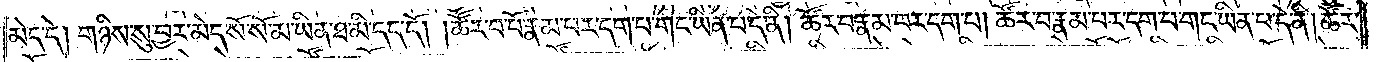མེད་དེ། གཉིས་སུ་བྱར་མེད་སོ་སོ་མ་ཡིན་ཐ་མི་དད་དོ། །ཚོར་བ་པོ་རྣམ་པར་དག་པ་གང་ཡིན་པ་དེ་ནི། ཚོར་བ་རྣམ་པར་དག་པ། ཚོར་བ་རྣམ་པར་དག་པ་གང་ཡིན་པ་དེ་ནི། ཚོར་
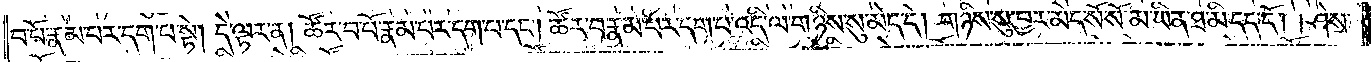བ་པོ་རྣམ་པར་དག་པ་སྟེ། དེ་ལྟར་ན། ཚོར་བ་པོ་རྣམ་པར་དག་པ་དང༌། ཚོར་བ་རྣམ་པར་དག་པ་འདི་ལ་གཉིས་སུ་མེད་དེ། གཉིས་སུ་བྱར་མེད་སོ་སོ་མ་ཡིན་ཐ་མི་དད་དོ། །ཤེས་
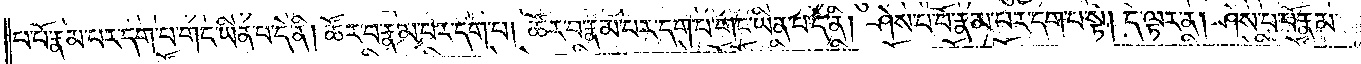པ་པོ་རྣམ་པར་དག་པ་གང་ཡིན་པ་དེ་ནི། ཚོར་བ་རྣམ་པར་དག་པ། ཚོར་བ་རྣམ་པར་དག་པ་གང་ཡིན་པ་དེ་ནི། ཤེས་པ་པོ་རྣམ་པར་དག་པ་སྟེ། དེ་ལྟར་ན། ཤེས་པ་པོ་རྣམ་
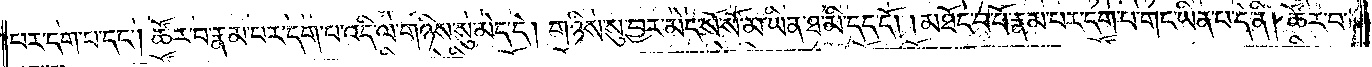པར་དག་པ་དང༌། ཚོར་བ་རྣམ་པར་དག་པ་འདི་ལ་གཉིས་སུ་མེད་དེ། གཉིས་སུ་བྱར་མེད་སོ་སོ་མ་ཡིན་ཐ་མི་དད་དོ། །མཐོང་བ་པོ་རྣམ་པར་དག་པ་གང་ཡིན་པ་དེ་ནི། ཚོར་བ་
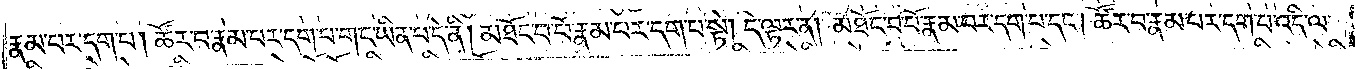རྣམ་པར་དག་པ། ཚོར་བ་རྣམ་པར་དག་པ་གང་ཡིན་པ་དེ་ནི། མཐོང་བ་པོ་རྣམ་པར་དག་པ་སྟེ། དེ་ལྟར་ན། མཐོང་བ་པོ་རྣམ་པར་དག་པ་དང༌། ཚོར་བ་རྣམ་པར་དག་པ་འདི་ལ་
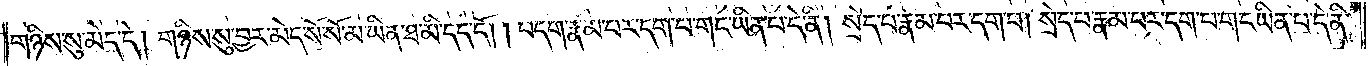གཉིས་སུ་མེད་དེ། གཉིས་སུ་བྱར་མེད་སོ་སོ་མ་ཡིན་ཐ་མི་དད་དོ། །བདག་རྣམ་པར་དག་པ་གང་ཡིན་པ་དེ་ནི། སྲེད་པ་རྣམ་པར་དག་པ། སྲེད་པ་རྣམ་པར་དག་པ་གང་ཡིན་པ་དེ་ནི།
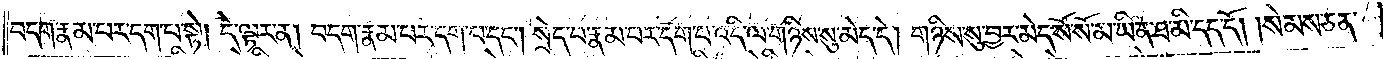བདག་རྣམ་པར་དག་པ་སྟེ། དེ་ལྟར་ན། བདག་རྣམ་པར་དག་པ་དང༌། སྲེད་པ་རྣམ་པར་དག་པ་འདི་ལ་གཉིས་སུ་མེད་དེ། གཉིས་སུ་བྱར་མེད་སོ་སོ་མ་ཡིན་ཐ་མི་དད་དོ། །སེམས་ཅན་
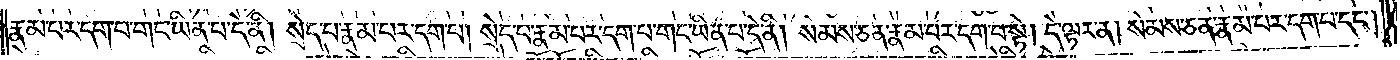རྣམ་པར་དག་པ་གང་ཡིན་པ་དེ་ནི། སྲེད་པ་རྣམ་པར་དག་པ། སྲེད་པ་རྣམ་པར་དག་པ་གང་ཡིན་པ་དེ་ནི། སེམས་ཅན་རྣམ་པར་དག་པ་སྟེ། དེ་ལྟར་ན། སེམས་ཅན་རྣམ་པར་དག་པ་དང༌།
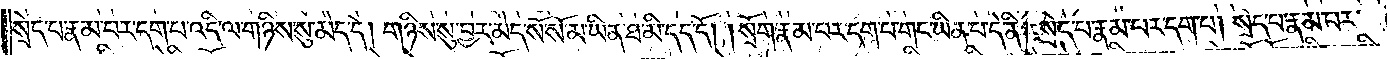སྲེད་པ་རྣམ་པར་དག་པ་འདི་ལ་གཉིས་སུ་མེད་དེ། གཉིས་སུ་བྱར་མེད་སོ་སོ་མ་ཡིན་ཐ་མི་དད་དོ། །སྲོག་རྣམ་པར་དག་པ་གང་ཡིན་པ་དེ་ནི། སྲེད་པ་རྣམ་པར་དག་པ། སྲེད་པ་རྣམ་པར་
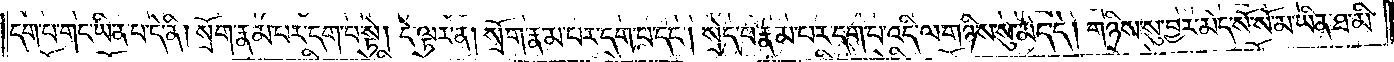དག་པ་གང་ཡིན་པ་དེ་ནི། སྲོག་རྣམ་པར་དག་པ་སྟེ། དེ་ལྟར་ན། སྲོག་རྣམ་པར་དག་པ་དང༌། སྲེད་པ་རྣམ་པར་དག་པ་འདི་ལ་གཉིས་སུ་མེད་དེ། གཉིས་སུ་བྱར་མེད་སོ་སོ་མ་ཡིན་ཐ་མི་
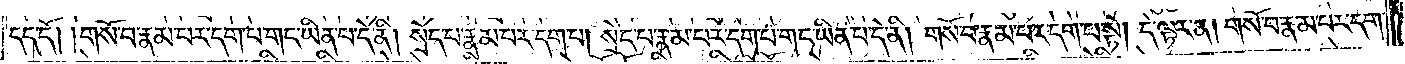དད་དོ། །གསོ་བ་རྣམ་པར་དག་པ་གང་ཡིན་པ་དེ་ནི། སྲེད་པ་རྣམ་པར་དག་པ། སྲེད་པ་རྣམ་པར་དག་པ་གང་ཡིན་པ་དེ་ནི། གསོ་བ་རྣམ་པར་དག་པ་སྟེ། དེ་ལྟར་ན། གསོ་བ་རྣམ་པར་དག་
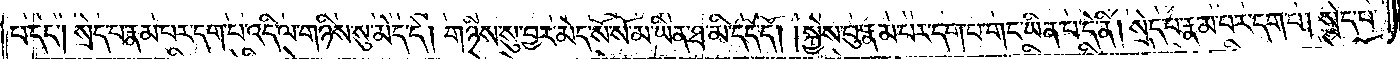པ་དང༌། སྲེད་པ་རྣམ་པར་དག་པ་འདི་ལ་གཉིས་སུ་མེད་དེ། གཉིས་སུ་བྱར་མེད་སོ་སོ་མ་ཡིན་ཐ་མི་དད་དོ། །སྐྱེས་བུ་རྣམ་པར་དག་པ་གང་ཡིན་པ་དེ་ནི། སྲེད་པ་རྣམ་པར་དག་པ། སྲེད་པ་
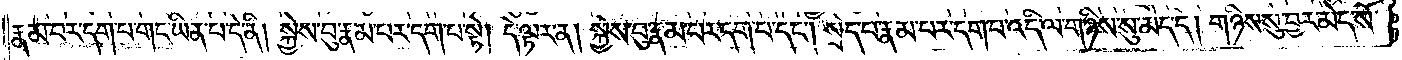རྣམ་པར་དག་པ་གང་ཡིན་པ་དེ་ནི། སྐྱེས་བུ་རྣམ་པར་དག་པ་སྟེ། དེ་ལྟར་ན། སྐྱེས་བུ་རྣམ་པར་དག་པ་དང༌། སྲེད་པ་རྣམ་པར་དག་པ་འདི་ལ་གཉིས་སུ་མེད་དེ། གཉིས་སུ་བྱར་མེད་སོ་
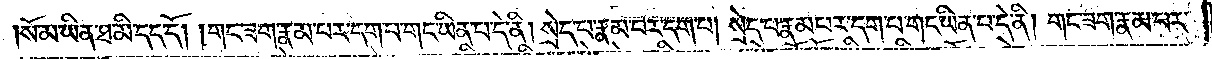སོ་མ་ཡིན་ཐ་མི་དད་དོ། །གང་ཟག་རྣམ་པར་དག་པ་གང་ཡིན་པ་དེ་ནི། སྲེད་པ་རྣམ་པར་དག་པ། སྲེད་པ་རྣམ་པར་དག་པ་གང་ཡིན་པ་དེ་ནི། གང་ཟག་རྣམ་པར་
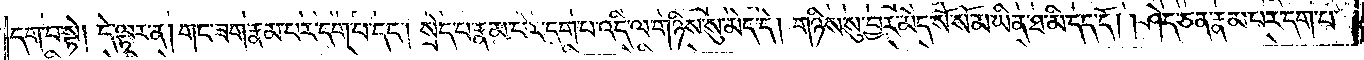དག་པ་སྟེ། དེ་ལྟར་ན། གང་ཟག་རྣམ་པར་དག་པ་དང༌། སྲེད་པ་རྣམ་པར་དག་པ་འདི་ལ་གཉིས་སུ་མེད་དེ། གཉིས་སུ་བྱར་མེད་སོ་སོ་མ་ཡིན་ཐ་མི་དད་དོ། །ཤེད་ཅན་རྣམ་པར་དག་པ་
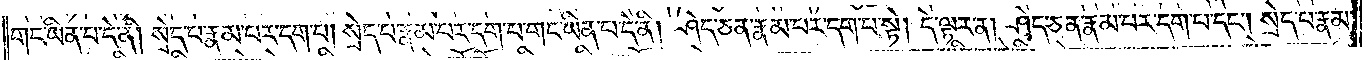གང་ཡིན་པ་དེ་ནི། སྲེད་པ་རྣམ་པར་དག་པ། སྲེད་པ་རྣམ་པར་དག་པ་གང་ཡིན་པ་དེ་ནི། ཤེད་ཅན་རྣམ་པར་དག་པ་སྟེ། དེ་ལྟར་ན། ཤེད་ཅན་རྣམ་པར་དག་པ་དང༌། སྲེད་པ་རྣམ་
